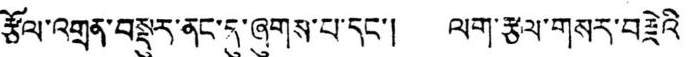རྩོལ་འགྲན་བསྡུར་ནང་དུ་ཞུགས་པ་དང་། ལག་རྩལ་གསར་བརྗེའི
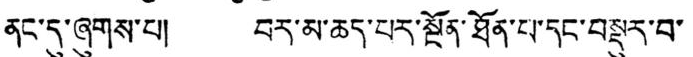ནང་དུ་ཞུགས་པ། བར་མ་ཆད་པར་སྔོན་ཐོན་པ་དང་བསྡུར་བ་
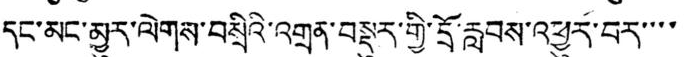དང་མང་མྱུར་ལེགས་བསྲིའི་འགྲན་བསྡུར་གྱི་དྲོ་རླབས་འཕྱུར་བར་་་་
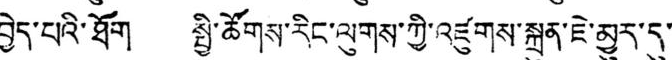བྱེད་པའི་ཐོག སྤྱི་ཚོགས་རིང་ལུགས་ཀྱི་འཛུགས་སྐྲུན་ཇེ་མྱུར་དུ་
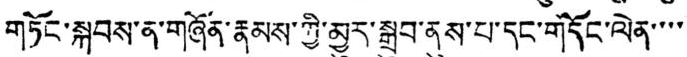གཏོང་སྐབས་ན་གཞོན་རྣམས་ཀྱི་མྱུར་སྒྲུབ་ནུས་པ་དང་གདོང་ལེན་་་་
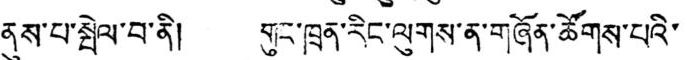ནུས་པ་སྤེལ་བ་ནི། གུང་ཁྲན་རིང་ལུགས་ན་གཞོན་ཚོགས་པའི་
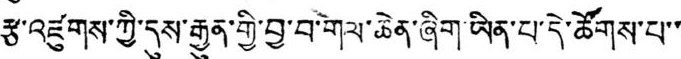རྩ་འཛུགས་ཀྱི་དུས་རྒྱུན་གྱི་བྱ་བ་གལ་ཆེན་ཞིག་ཡིན་པ་དེ་ཚོགས་པ་་
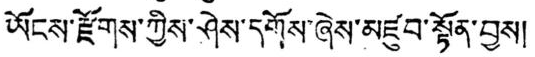ཡོངས་རྫོགས་ཀྱིས་ཤེས་དགོས་ཞེས་མཛུབ་སྟོན་བྱས།
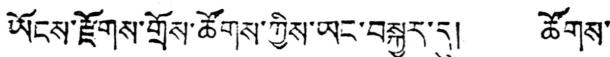ཡོངས་རྫོགས་གྲོས་ཚོགས་ཀྱིས་ཡང་བསྐྱར་དུ། ཚོགས་
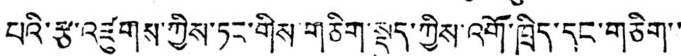པའི་རྩ་འཛུགས་ཀྱིས་ཏང་གིས་གཅིག་སྡུད་ཀྱིས་འགོ་ཁྲིད་དང་གཅིག་་
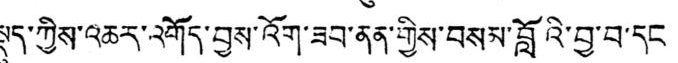སྡུད་ཀྱིས་འཆར་འགོད་བྱས་འོག་ཟབ་ནན་གྱིས་བསམ་བློའི་བྱ་བ་དང
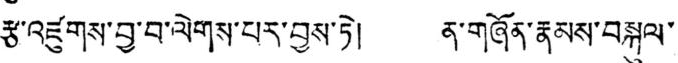རྩ་འཛུགས་བྱ་བ་ལེགས་པར་བྱས་ཏེ། ན་གཞོན་རྣམས་བསྐུལ་
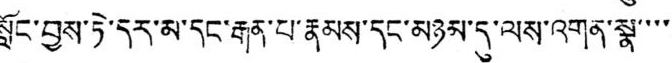སློང་བྱས་ཏེ་དར་མ་དང་རྒན་པ་རྣམས་དང་མཉམ་དུ་ལས་འགན་སྣ་་་་
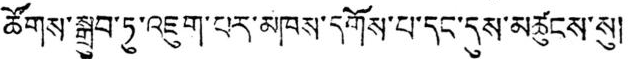ཚོགས་སྒྲུབ་ཏུ་འཇུག་པར་མཁས་དགོས་པ་དང་དུས་མཚུངས་སུ།
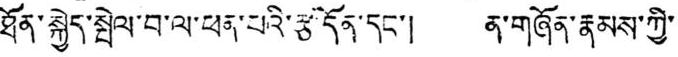ཐོན་སྐྱེད་སྤེལ་བ་ལ་ཕན་པའི་རྩ་དོན་དང་། ན་གཞོན་རྣམས་ཀྱི་
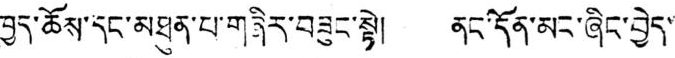ཁྱད་ཆོས་དང་མཐུན་པ་གཞིར་བཟུང་སྟེ། ནང་དོན་མང་ཞིང་བྱེད་
